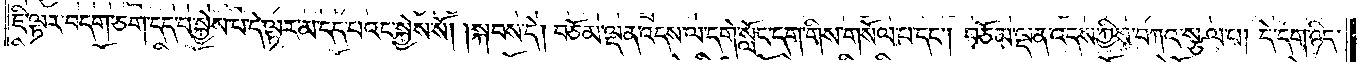ཇི་ལྟར་བདག་ཅག་དད་པ་སྐྱེས་པ་དེ་ལྟར་མ་དད་པའང་སྐྱེས་སོ། །སྐབས་དེ། བཅོམ་ལྡན་འདས་ལ་དགེ་སློང་དག་གིས་གསོལ་པ་དང༌། བཅོམ་ལྡན་འདས་ཀྱིས་བཀའ་སྩལ་པ། དེ་དག་ཉིད་
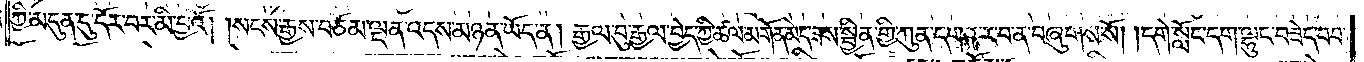ཀྱི་མདུན་དུ་དོར་བར་མི་བྱའོ། །སངས་རྒྱས་བཅོམ་ལྡན་འདས་མཉན་ཡོད་ན། རྒྱལ་བུ་རྒྱལ་བྱེད་ཀྱི་ཚལ་མགོན་མེད་ཟས་སྦྱིན་གྱི་ཀུན་དགའ་ར་བ་ན་བཞུགས་སོ། །དགེ་སློང་དག་ལྷུང་བཟེད་བབ་
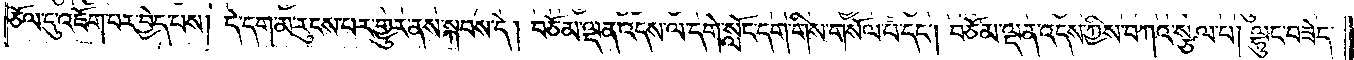ཅོལ་དུ་འཇོག་པར་བྱེད་པས། དེ་དག་མ་རུངས་པར་གྱུར་ནས་སྐབས་དེ། བཅོམ་ལྡན་འདས་ལ་དགེ་སློང་དག་གིས་གསོལ་པ་དང༌། བཅོམ་ལྡན་འདས་ཀྱིས་བཀའ་སྩལ་པ། ལྷུང་བཟེད་
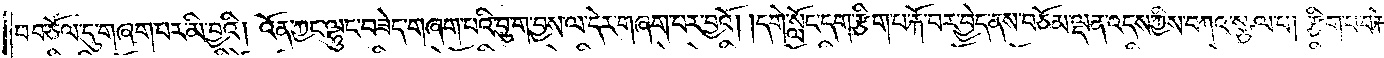པ་བཅོལ་དུ་གཞག་པར་མི་བྱའི། འོན་ཀྱང་ལྷུང་བཟེད་གཞག་པའི་བུ་ག་བྱས་ལ་དེར་གཞག་པར་བྱའོ། །དགེ་སློང་དག་རྩིག་པ་རྐོ་བར་བྱེད་ནས་བཅོམ་ལྡན་འདས་ཀྱིས་བཀའ་སྩལ་པ། རྩིག་པ་བརྐོ་
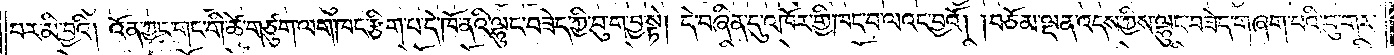བར་མི་བྱའི། འོན་ཀྱང་གང་གི་ཚེ་གཙུག་ལག་ཁང་རྩིག་པ་དེ་ཁོ་ནའི་ལྷུང་བཟེད་ཀྱི་བུ་ག་བྱ་སྟེ། དེ་བཞིན་དུ་འཁོར་གྱི་ཁང་བ་ལའང་བྱའོ། །བཅོམ་ལྡན་འདས་ཀྱིས་ལྷུང་བཟེད་གཞག་པའི་བུ་གར་
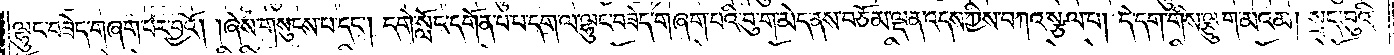ལྷུང་བཟེད་གཞག་པར་བྱའོ། །ཞེས་གསུངས་པ་དང༌། དགེ་སློང་དགོན་པ་པ་དག་ལ་ལྷུང་བཟེད་གཞག་པའི་བུ་ག་མེད་ནས་བཅོམ་ལྡན་འདས་ཀྱིས་བཀའ་སྩལ་པ། དེ་དག་གིས་ལྕུག་མའམ། སྲད་བུའི་
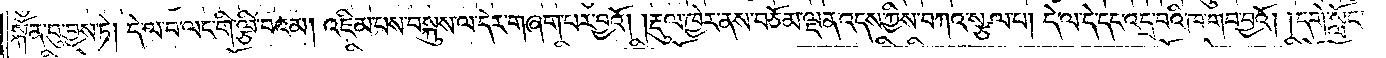སྐོན་བུ་བྱས་ཏེ། དེ་ལ་བ་ལང་གི་ལྕི་བའམ། འཇིམ་པས་བསྐུས་ལ་དེར་གཞག་པར་བྱའོ། །རྡུལ་ཁྱེར་ནས་བཅོམ་ལྡན་འདས་ཀྱིས་བཀའ་སྩལ་པ། དེ་ལ་དེ་དང་འདྲ་བའི་ཁ་གབ་བྱའོ། །དགེ་སློང་
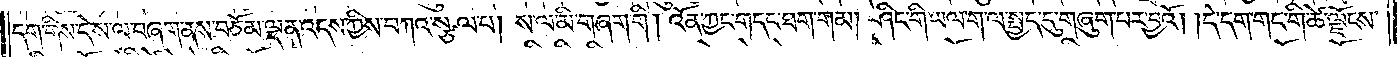དག་གིས་དེ་ས་ལ་བཞག་ནས་བཅོམ་ལྡན་འདས་ཀྱིས་བཀའ་སྩལ་པ། ས་ལ་མི་གཞག་གི། འོན་ཀྱང་གདང་ཐག་གམ། ཤིང་གི་ཡལ་ག་ལ་སྤྱད་དུ་གཞུག་པར་བྱའོ། །དེ་དག་གང་གི་ཚེ་ལྗོངས་
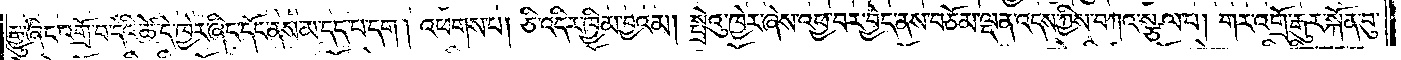རྒྱུ་ཞིང་འགྲོ་བ་དེའི་ཚེ་དེ་ཁྱེར་ཞིང་དོང་ནས་མ་དད་པ་དག །འཕགས་པ། ཅི་འདིར་ཁྱིམ་བྱའམ། སྤྲེའུ་ཁྱེར་ཞེས་འཕྱ་བར་བྱེད་ནས་བཅོམ་ལྡན་འདས་ཀྱིས་བཀའ་སྩལ་པ། གར་འགྲོ་རྒུར་སྐོན་བུ་
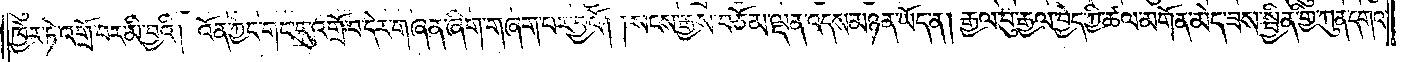ཁྱེར་ཏེ་འགྲོ་བར་མི་བྱའི། འོན་ཀྱང་གང་དུ་འགྲོ་བ་དེར་གཞན་ཞིག་གཞག་པར་བྱའོ། །སངས་རྒྱས་བཅོམ་ལྡན་འདས་མཉན་ཡོད་ན། རྒྱལ་བུ་རྒྱལ་བྱེད་ཀྱི་ཚལ་མགོན་མེད་ཟས་སྦྱིན་གྱི་ཀུན་དགའ་
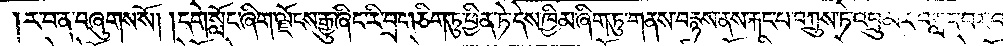ར་བ་ན་བཞུགས་སོ། །དགེ་སློང་ཞིག་ལྗོངས་རྒྱུ་ཞིང་རི་བྲག་ཅིག་ཏུ་ཕྱིན་ཏེ་དེས་ཁྱིམ་ཞིག་ཏུ་གནས་བརྙས་ནས་རྐང་པ་བཀྲུས་ཏེ་འབྲུ་མར་བསླང་བར་བ
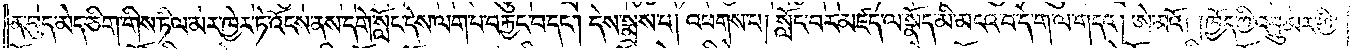ན་བུད་མེད་ཅིག་གིས་ཏིལ་མར་ཁྱེར་ཏེ་འོངས་ནས་དགེ་སློང་དེས་ལག་པ་བརྐྱང་བ་དང༌། དེས་སྨྲས་པ། འཕགས་པ། སློང་བར་མཛད་ལ་སྣོད་མི་མངའ་བ་དེ་ག་ལ་གདའ། ཨེ་མའོ། །ཁྱོད་ཀྱི་འབྲུ་མར་གྱི་
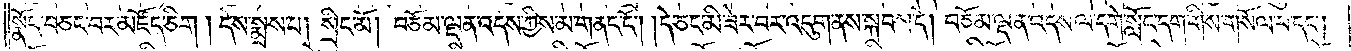སྣོད་བཅང་བར་མཛོད་ཅིག །དེས་སྨྲས་པ། སྲིང་མོ། བཅོམ་ལྡན་འདས་ཀྱིས་མ་གནང་ངོ༌། །དེ་ཅང་མི་ཟེར་བར་འདུག་ནས་སྐབས་དེ། བཅོམ་ལྡན་འདས་ལ་དགེ་སློང་དག་གིས་གསོལ་པ་དང༌།
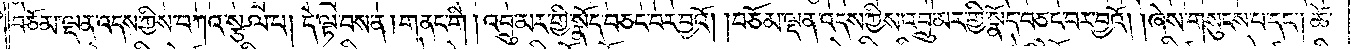བཅོམ་ལྡན་འདས་ཀྱིས་བཀའ་སྩལ་པ། དེ་ལྟ་བས་ན། གནང་གི །འབྲུ་མར་གྱི་སྣོད་བཅང་བར་བྱའོ། །བཅོམ་ལྡན་འདས་ཀྱིས་འབྲུ་མར་གྱི་སྣོད་བཅང་བར་བྱའོ། །ཞེས་གསུངས་པ་དང༌། ཚེ་
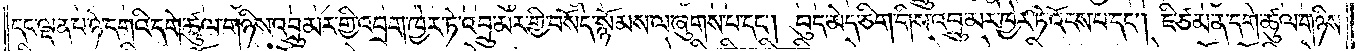དང་ལྡན་པ་ཉེ་དགའི་དགེ་ཚུལ་གཉིས་འབྲུ་མར་གྱི་འབྲག་ཁྱེར་ཏེ་འབྲུ་མར་གྱི་བསོད་སྙོམས་ལ་ཞུགས་པ་དང༌། བུད་མེད་ཅིག་གིས་འབྲུ་མར་ཁྱེར་ཏེ་འོངས་པ་དང༌། ཇི་ཙམ་ན་དགེ་ཚུལ་གཉིས་
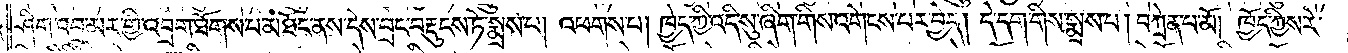ཤིག་འབྲུ་མར་གྱི་འབྲག་ཐོགས་པ་མཐོང་ནས་དེས་བྲང་བརྡུངས་ཏེ་སྨྲས་པ། འཕགས་པ། ཁྱེད་ཀྱི་འདི་སུ་ཞིག་གིས་འགེངས་པར་བྱེད། དེ་དག་གིས་སྨྲས་པ། བཀྲེན་པ་མོ། ཁྱོད་ཀྱིས་རེ་
